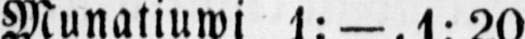Munatiuwi 1:—, 1:20
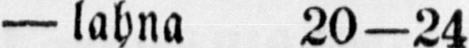— lahna 20—24
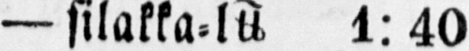— silakka-lU+2114 1: 40
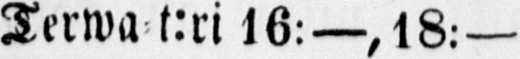Terwa t:ri 16:—, 18:—
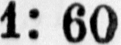1: 60
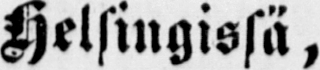Helsingissä,
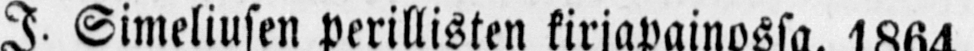J. Simeliusen perillisten kirjapainossa, 1864.
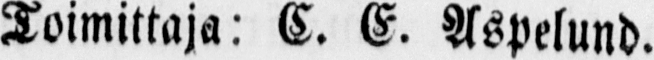Toimittaja: C. E. Aspelund.
